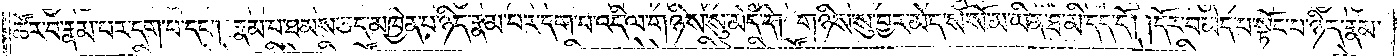ཚོར་བ་རྣམ་པར་དག་པ་དང༌། རྣམ་པ་ཐམས་ཅད་མཁྱེན་པ་ཉིད་རྣམ་པར་དག་པ་འདི་ལ་གཉིས་སུ་མེད་དེ། གཉིས་སུ་བྱར་མེད་སོ་སོ་མ་ཡིན་ཐ་མི་དད་དོ། །དོར་བ་མེད་པ་སྟོང་པ་ཉིད་རྣམ་
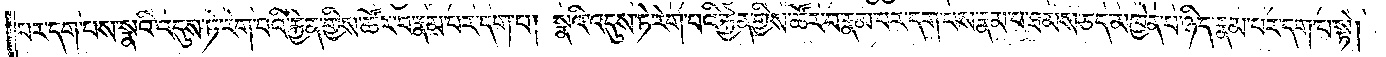པར་དག་པས་སྣའི་འདུས་ཏེ་རེག་པའི་རྐྱེན་གྱིས་ཚོར་བ་རྣམ་པར་དག་པ། སྣའི་འདུས་ཏེ་རེག་པའི་རྐྱེན་གྱིས་ཚོར་བ་རྣམ་པར་དག་པས་རྣམ་པ་ཐམས་ཅད་མཁྱེན་པ་ཉིད་རྣམ་པར་དག་པ་སྟེ།
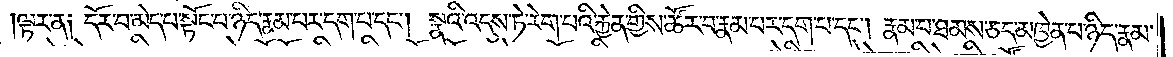དེ་ལྟར་ན༑ དོར་བ་མེད་པ་སྟོང་པ་ཉིད་རྣམ་པར་དག་པ་དང༌། སྣའི་འདུས་ཏེ་རེག་པའི་རྐྱེན་གྱིས་ཚོར་བ་རྣམ་པར་དག་པ་དང༌། རྣམ་པ་ཐམས་ཅད་མཁྱེན་པ་ཉིད་རྣམ་
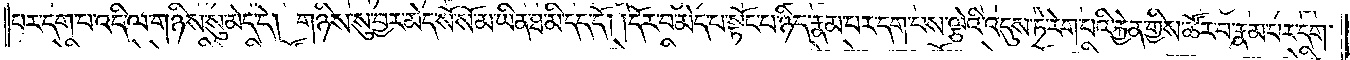པར་དག་པ་འདི་ལ་གཉིས་སུ་མེད་དེ། གཉིས་སུ་བྱར་མེད་སོ་སོ་མ་ཡིན་ཐ་མི་དད་དོ། །དོར་བ་མེད་པ་སྟོང་པ་ཉིད་རྣམ་པར་དག་པས་ལྕེའི་འདུས་ཏེ་རེག་པའི་རྐྱེན་གྱིས་ཚོར་བ་རྣམ་པར་དག་
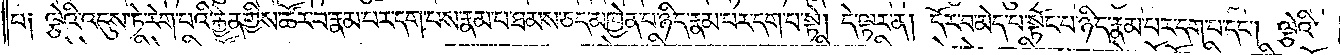པ༑ ལྕེའི་འདུས་ཏེ་རེག་པའི་རྐྱེན་གྱིས་ཚོར་བ་རྣམ་པར་དག་པས་རྣམ་པ་ཐམས་ཅད་མཁྱེན་པ་ཉིད་རྣམ་པར་དག་པ་སྟེ། དེ་ལྟར་ན། དོར་བ་མེད་པ་སྟོང་པ་ཉིད་རྣམ་པར་དག་པ་དང༌། ལྕེའི་
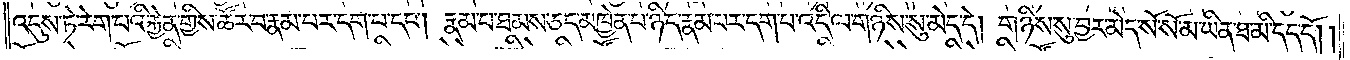འདུས་ཏེ་རེག་པའི་རྐྱེན་གྱིས་ཚོར་བ་རྣམ་པར་དག་པ་དང༌། རྣམ་པ་ཐམས་ཅད་མཁྱེན་པ་ཉིད་རྣམ་པར་དག་པ་འདི་ལ་གཉིས་སུ་མེད་དེ། གཉིས་སུ་བྱར་མེད་སོ་སོ་མ་ཡིན་ཐ་མི་དད་དོ། །
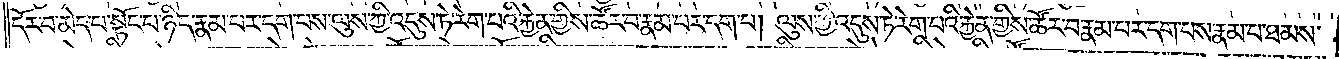དོར་བ་མེད་པ་སྟོང་པ་ཉིད་རྣམ་པར་དག་པས་ལུས་ཀྱི་འདུས་ཏེ་རེག་པའི་རྐྱེན་གྱིས་ཚོར་བ་རྣམ་པར་དག་པ། ལུས་ཀྱི་འདུས་ཏེ་རེག་པའི་རྐྱེན་གྱིས་ཚོར་བ་རྣམ་པར་དག་པས་རྣམ་པ་ཐམས་
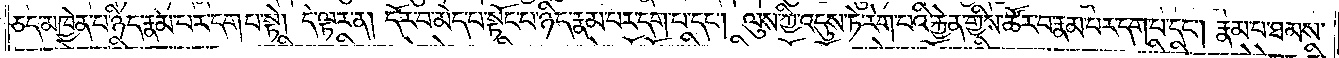ཅད་མཁྱེན་པ་ཉིད་རྣམ་པར་དག་པ་སྟེ། དེ་ལྟར་ན། དོར་བ་མེད་པ་སྟོང་པ་ཉིད་རྣམ་པར་དག་པ་དང༌། ལུས་ཀྱི་འདུས་ཏེ་རེག་པའི་རྐྱེན་གྱིས་ཚོར་བ་རྣམ་པར་དག་པ་དང༌། རྣམ་པ་ཐམས་
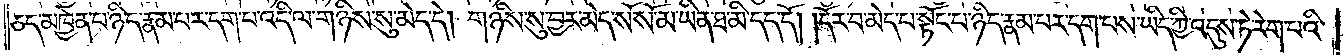ཅད་མཁྱེན་པ་ཉིད་རྣམ་པར་དག་པ་འདི་ལ་གཉིས་སུ་མེད་དེ། གཉིས་སུ་བྱར་མེད་སོ་སོ་མ་ཡིན་ཐ་མི་དད་དོ། །དོར་བ་མེད་པ་སྟོང་པ་ཉིད་རྣམ་པར་དག་པས་ཡིད་ཀྱི་འདུས་ཏེ་རེག་པའི་
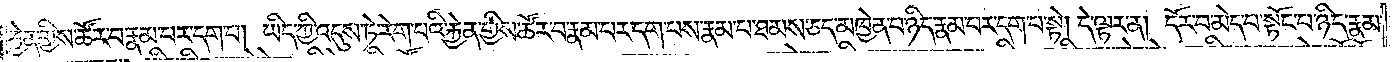རྐྱེན་གྱིས་ཚོར་བ་རྣམ་པར་དག་པ། ཡིད་ཀྱི་འདུས་ཏེ་རེག་པའི་རྐྱེན་གྱིས་ཚོར་བ་རྣམ་པར་དག་པས་རྣམ་པ་ཐམས་ཅད་མཁྱེན་པ་ཉིད་རྣམ་པར་དག་པ་སྟེ། དེ་ལྟར་ན། དོར་བ་མེད་པ་སྟོང་པ་ཉིད་རྣམ་
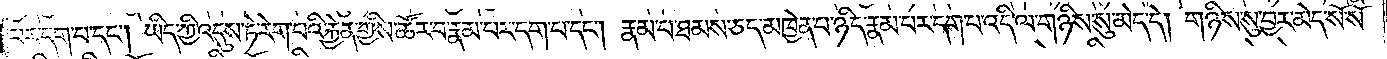པར་དག་པ་དང༌། ཡིད་ཀྱི་འདུས་ཏེ་རེག་པའི་རྐྱེན་གྱིས་ཚོར་བ་རྣམ་པར་དག་པ་དང༌། རྣམ་པ་ཐམས་ཅད་མཁྱེན་པ་ཉིད་རྣམ་པར་དག་པ་འདི་ལ་གཉིས་སུ་མེད་དེ། གཉིས་སུ་བྱར་མེད་སོ་སོ་
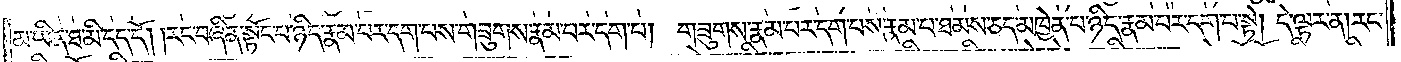མ་ཡིན་ཐ་མི་དད་དོ། །རང་བཞིན་སྟོང་པ་ཉིད་རྣམ་པར་དག་པས་གཟུགས་རྣམ་པར་དག་པ། གཟུགས་རྣམ་པར་དག་པས་རྣམ་པ་ཐམས་ཅད་མཁྱེན་པ་ཉིད་རྣམ་པར་དག་པ་སྟེ། དེ་ལྟར་ན། རང་
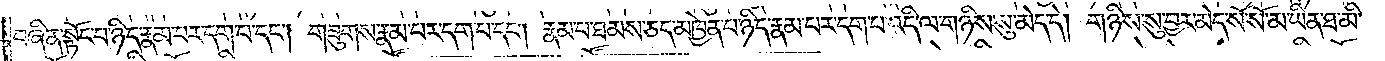བཞིན་སྟོང་པ་ཉིད་རྣམ་པར་དག་པ་དང༌། གཟུགས་རྣམ་པར་དག་པ་དང༌། རྣམ་པ་ཐམས་ཅད་མཁྱེན་པ་ཉིད་རྣམ་པར་དག་པ་འདི་ལ་གཉིས་སུ་མེད་དེ། གཉིས་སུ་བྱར་མེད་སོ་སོ་མ་ཡིན་ཐ་མི་
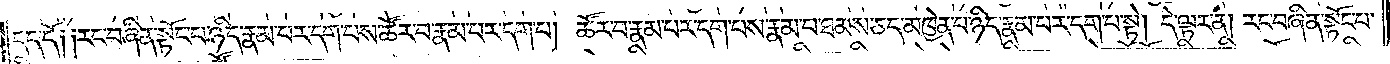དད་དོ༑ ༑རང་བཞིན་སྟོང་པ་ཉིད་རྣམ་པར་དག་པས་ཚོར་བ་རྣམ་པར་དག་པ། ཚོར་བ་རྣམ་པར་དག་པས་རྣམ་པ་ཐམས་ཅད་མཁྱེན་པ་ཉིད་རྣམ་པར་དག་པ་སྟེ། དེ་ལྟར་ན། རང་བཞིན་སྟོང་པ་
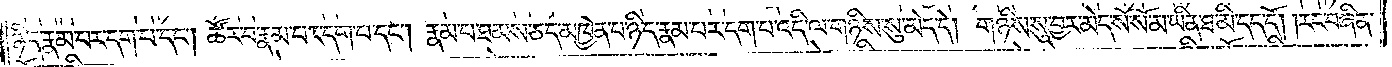ཉིད་རྣམ་པར་དག་པ་དང༌། ཚོར་བ་རྣམ་པར་དག་པ་དང༌། རྣམ་པ་ཐམས་ཅད་མཁྱེན་པ་ཉིད་རྣམ་པར་དག་པ་འདི་ལ་གཉིས་སུ་མེད་དེ། གཉིས་སུ་བྱར་མེད་སོ་སོ་མ་ཡིན་ཐ་མི་དད་དོ། །རང་བཞིན་
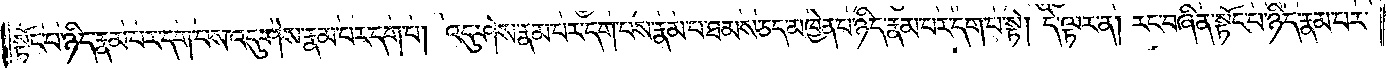སྟོང་པ་ཉིད་རྣམ་པར་དག་པས་འདུ་ཤེས་རྣམ་པར་དག་པ། འདུ་ཤེས་རྣམ་པར་དག་པས་རྣམ་པ་ཐམས་ཅད་མཁྱེན་པ་ཉིད་རྣམ་པར་དག་པ་སྟེ། དེ་ལྟར་ན། རང་བཞིན་སྟོང་པ་ཉིད་རྣམ་པར་
